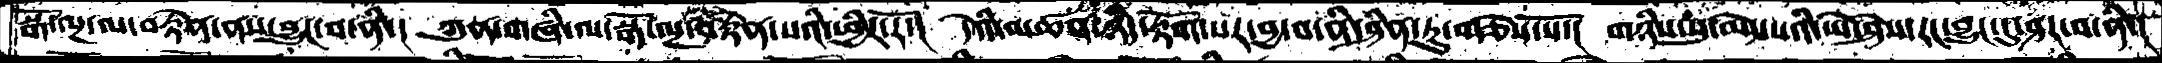སྒོ་ལྔ་ལ་བརྟེན་ནས་བྱུང་བ་ནི་།  ཀུན་གཞི་ལ་སྒོ་ལྔ་བརྟེན་པའི་ཕྱིར་རོ་།  དེའི་མཚན་ཉིད་རྟོག་པར་བྱ་བ་ནི་ཤིན་ཏུ་གཅེས་སོ་།  གཉིས་སུ་མེད་པའི་ཡེ་ཤེས་རང་བྱུང་དུ་ཤར་བ་ནི་།
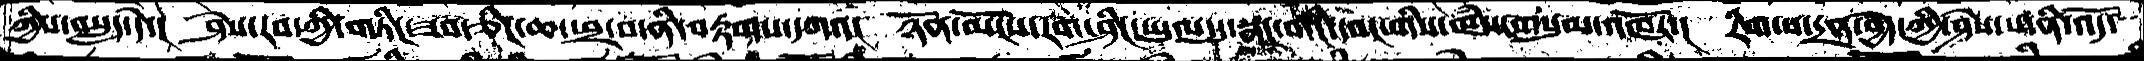གྱིས་བསླད་དེ་།  ཤེས་རབ་ཀྱི་གཏིང་ཟབ་ཅིང་ཆ་ཕྲ་བ་ནི་བརྟགས་དགའ།  ཉོན་མོངས་རག་ཤིང་ཡུལ་དུ་སྣང་བའི་དབང་གིས་ཁཾས་གསུམ་འཁོར་།  རིག་པ་དྲན་བྱེད་ཀྱི་ཤེས་པ་ནི་འདོ་
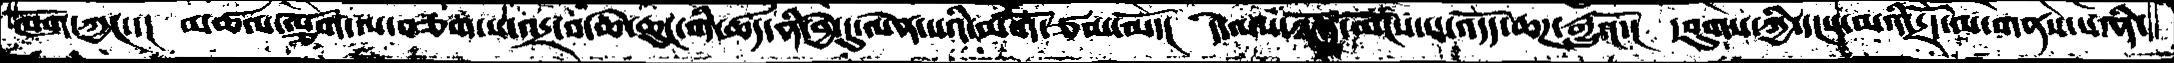ཁོག་ཀྱང་་།  མཚལ་ལྕོག་ལ་བཅག་པ་འདྲ་བ་ཆེ་ཆུང་གི་ཚད་ནི་བྱེ་དུ་ལེན་པའི་མགོ་ཙམ་མོ་།  དེ་ལས་ཉོན་མོངས་པ་འདོད་ཆཌ་རྒྱུའོ་།  དབུགས་ཀྱི་དངས་མའི་དྲོད་ལ་གནས་པ་ནི་
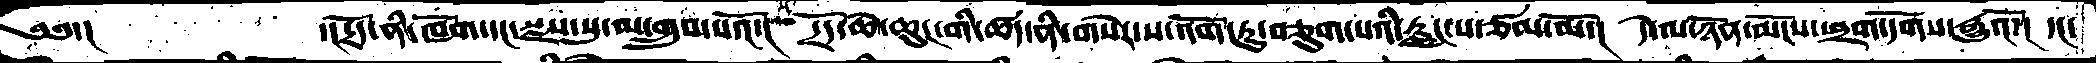༄༅་།         ་།དྲོད་ནི་ཁོག་དང་སྫས་སུ་མ་གྲུབ་པའོ་།  དྲོད་ཆེ་ཆུང་གི་ཚད་ནི་གསེར་ས་འོག་ཏུ་བཅུག་པའི་རླང་པ་ཙམ་མོ་།  དེ་ལ་ཉོན་མོངས་ཕྲག་དོགས་རྒྱུའོ་།  དང་
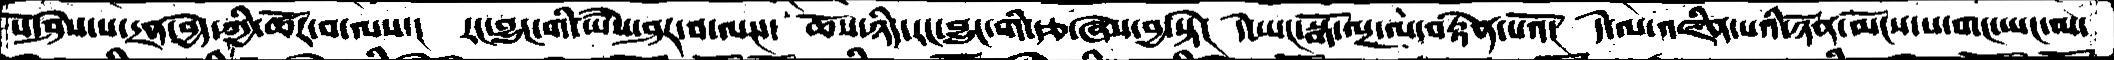པོ་ཤེས་པ་དྲན་བྱེད་ཀྱི་ཚོར་བ་ལས་།  རང་བྱུང་གི་ཡཻས་ཤར་བ་ལས།  ཆོས་ཉིད་རང་བྱུང་གི་རྩ་ཞེས་བྱ་སྟེ།  དེ་ཡང་སྒོ་ལྔ་ལ་བརྟེན་པའོ།  དེ་ལ་འཛིན་པའི་ཉོན་མོངས་པ་གང་ཡང་མ་
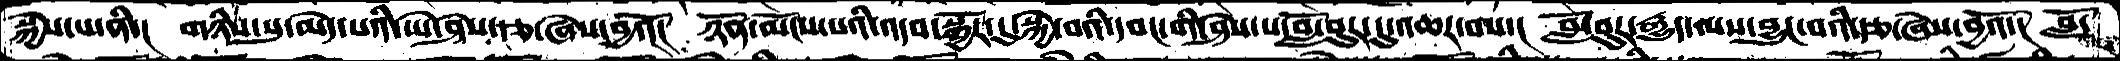སྐྱེས་པ་ནི་།  གཉིས་སུ་མེད་པའི་ཡེ་ཤེས་རྩ་ཞེས་བྱའོ་།  ཉོན་མོངས་པའི་འདབ་སྐྱོར་དུ་སྐྱེ་བའི་དབང་གི་ཤེས་པ་བློ་བུར་དུ་འཆར་བས་།  བློ་བུར་རྒྱུད་ལས་བྱུང་པའི་རྩ་ཞེས་བྱའོ་།  བློ་
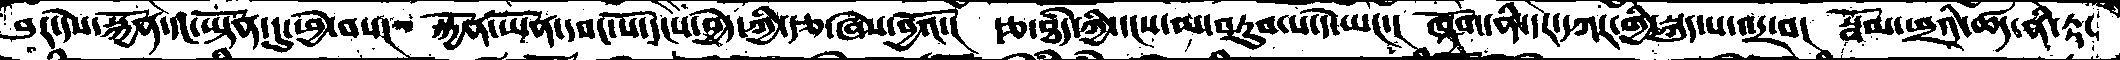བུར་དེས་སྐྱོན་དང་ཡྟོན་དུ་ཕྱེ་བས།  སྐྱོན་ཡོན་དབང་པོ་དངོས་བྱེད་ཀྱི་རྩ་ཞེས་བྱའོ་།  རྩ་ཐཾད་ཀྱི་དངས་མ་བཏུབ་པ་དེ་ཡང་།  ཁོག་ནི་དར་དཀར་གྱི་སྐུད་པ་འདྲ་བ་།  སྦོམ་ཕྲའི་ཚད་ནི་རྟ་
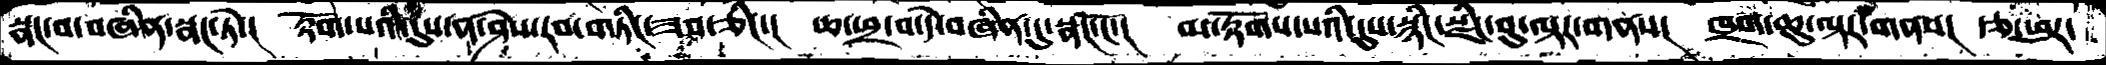སྣང་བ་བཞིན་སྣང་ཏེ་།  རྟོག་པའི་དུས་ན་ཤེས་རབ་གཏིང་ཟབ་ཅིང་།  ཆ་ཕྲ་བ་དེ་བཞིན་དུ་སྣང་ངོ་།  མ་རྟོགས་པའི་དུས་སྙིང་སྫིང་བུ་ལྟར་གནས།  ཁྲག་ཆུ་ལྟར་གནས།  རྩ་ཕུར་
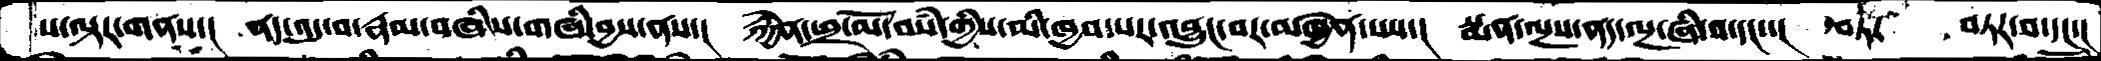པ་ལྟར་གནས་། ནད་འདུ་བ་རྣམ་བཞིས་གཞི་བྱས་ནས་། རྐྱེན་ཕྲ་མོ་བསཾ་གྱིས་མི་ཁྱབ་པར་འབྱུང་བར་མཁྱེན་པས་། སྨན་ལྔས་ནད་ལྔ་ཞི་བ་དང་་།  བཏང   བཏར་བ་དང་།
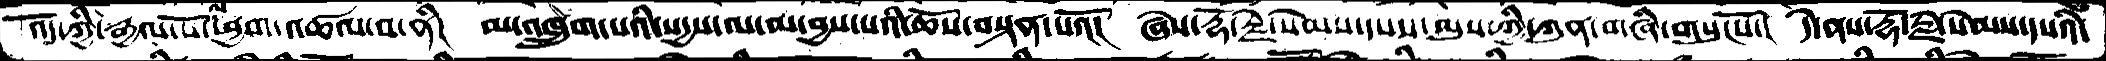འོད་ཀྱི་རྒྱལ་པོ་ལ་ཕྱག་འཚལ་བ་ནི།  མ་འཁྲུག་པའི་སདྱས་ལ་མ་བྱས་པའི་ཆོས་བསྟན་པའོ། ཞེས་རྡོ་རྗེ་སེམས་དཔས་ལུས་ཀྱི་ཀུན་གཞི་གསུངསོ་།  དེ་ནས་རྡོ་རྗེ་སེམས་དཔའི་
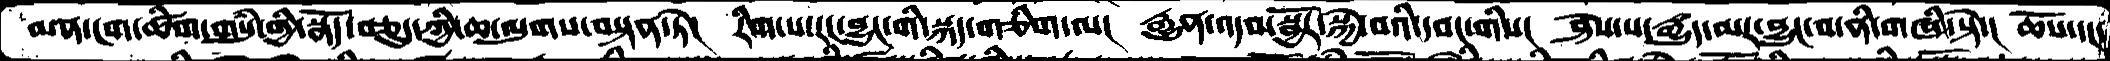མན་ངག་ཚིག་གསུཾ་གྱི་སྣོད་བཅུད་ཀྱི་ཆ་ལུགས་བསྟན་ཏེ།  རིག་པ་རང་བྱུང་གི་སྐད་གཅིག་མ། རྒྱུན་འདབ་སྦྱོར་སྐྱེ་བའི་དབང་གིས།  ཤེས་པ་རྒྱུད་མར་བྱུང་བ་ནི་གཞི་སྟེ་།  ཆོས་དང་
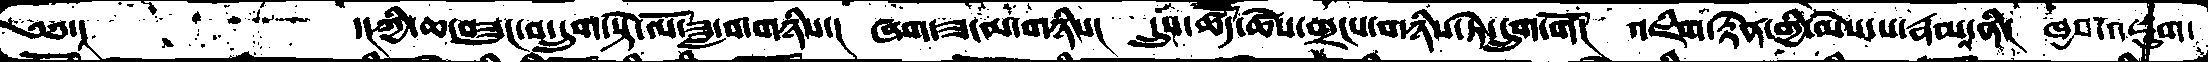༄༅་།          ་།ཀྱི་ཆ་བཟུང་བ་དྲུག་སྟེ་ལོ་ཟླ་བ་གཉིས་།  ཞག་ཟ་མ་གཉིས།  དུས་ཚོད་ཚེས་གྲངས་གཉིས་ཏེ་དྲུག་གོ།  འཇིག་རྟེན་གྱི་མེས་པ་རྣམ་ནི།  ཁྱབ་འཇུག་
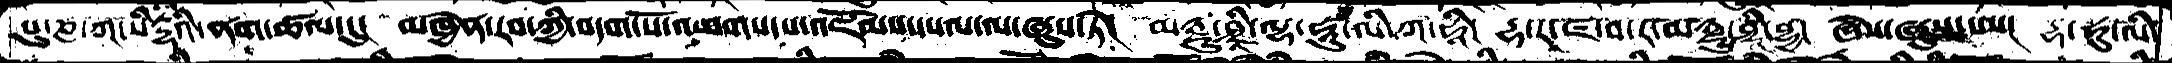པུ་ཎ་ག་སིདྡྷིའི་ནག་ཚལ་དུ།  མཁྱེན་རབ་ཀྱི་བདག་པོ་འཕགས་པ་འཇོམས་དཔལ་ལ་ཞུས་ཏེ།  མཉྫུ་ཤྲཱཱི་ལྷ་ཧཱུ་ལི་ཀ་ཧཱི།  དྷ་རཱ་ཛ་བ་ར་མཉྫུ་ཤྲཱཱི་བྷྱ། ཞེས་ཞུས་མ།  དྷ་ཧུ་ལི་
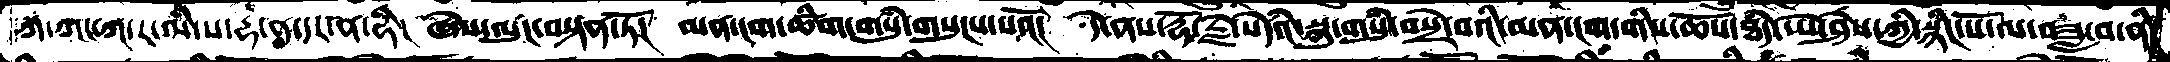ཀ་ཀང་ཀ་ར་ལི་ས་དྷ་ན་དང་ན་དྷི།  ཞེས་ལུང་བསྟན་ཏོ།  མན་ངག་ཚིག་གསུཾ་གསུངས་པའོ།  དེ་ནས་རྡོ་རྗེ་སེཾདའ་སྐུ་གསུཾ་བསྲེ་བའི་མན་ངག་གིས་ཆོས་ཐཾད་ཡེ་ཤེས་ཀྱི་སྙིང་པོ་ལ་བཟླ་བ་ནི་
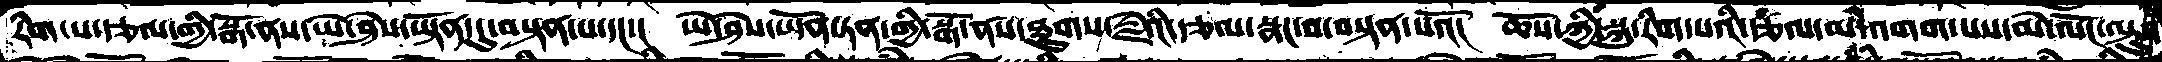རིག་པ་རྩལ་གྱི་སྒོ་ནས་ཡེ་ཤེས་ཡྟོན་དུ་བསྟན་པ་དང་།  ཡེ་ཤེས་ཡོན་ཏན་གྱི་སྒོ་ནས་ཐུགས་རྗེའི་རྩལ་སྣང་བ་བསྟན་པའོ།  ཆོས་ཀྱི་སྐུ་རིག་པའི་རྩལ་མ་འགག་པས་མེ་ལོང་ལྟུ་
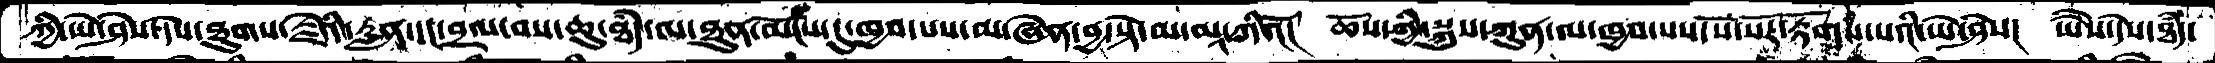ཀྱི་ཡེ་ཤེས་དེས་ཐུགས་རྗེའི་རླན་དང་བྲལ་བས་ཆུ་ཐཾད་ལ་ཐུན་མོངས་དུ་ཁྱབ་པས་མ་ཞེན་བྱ་སྟེ་མ་མཱ་ཀིའོ།  ཆོས་གྱི་སྐུས་ཀུན་ལ་ཁྱབ་པས་སོ་སོར་རྟོག་པའི་ཡེ་ཤེས།  ཡཻས་དེས་ཐཾད་
